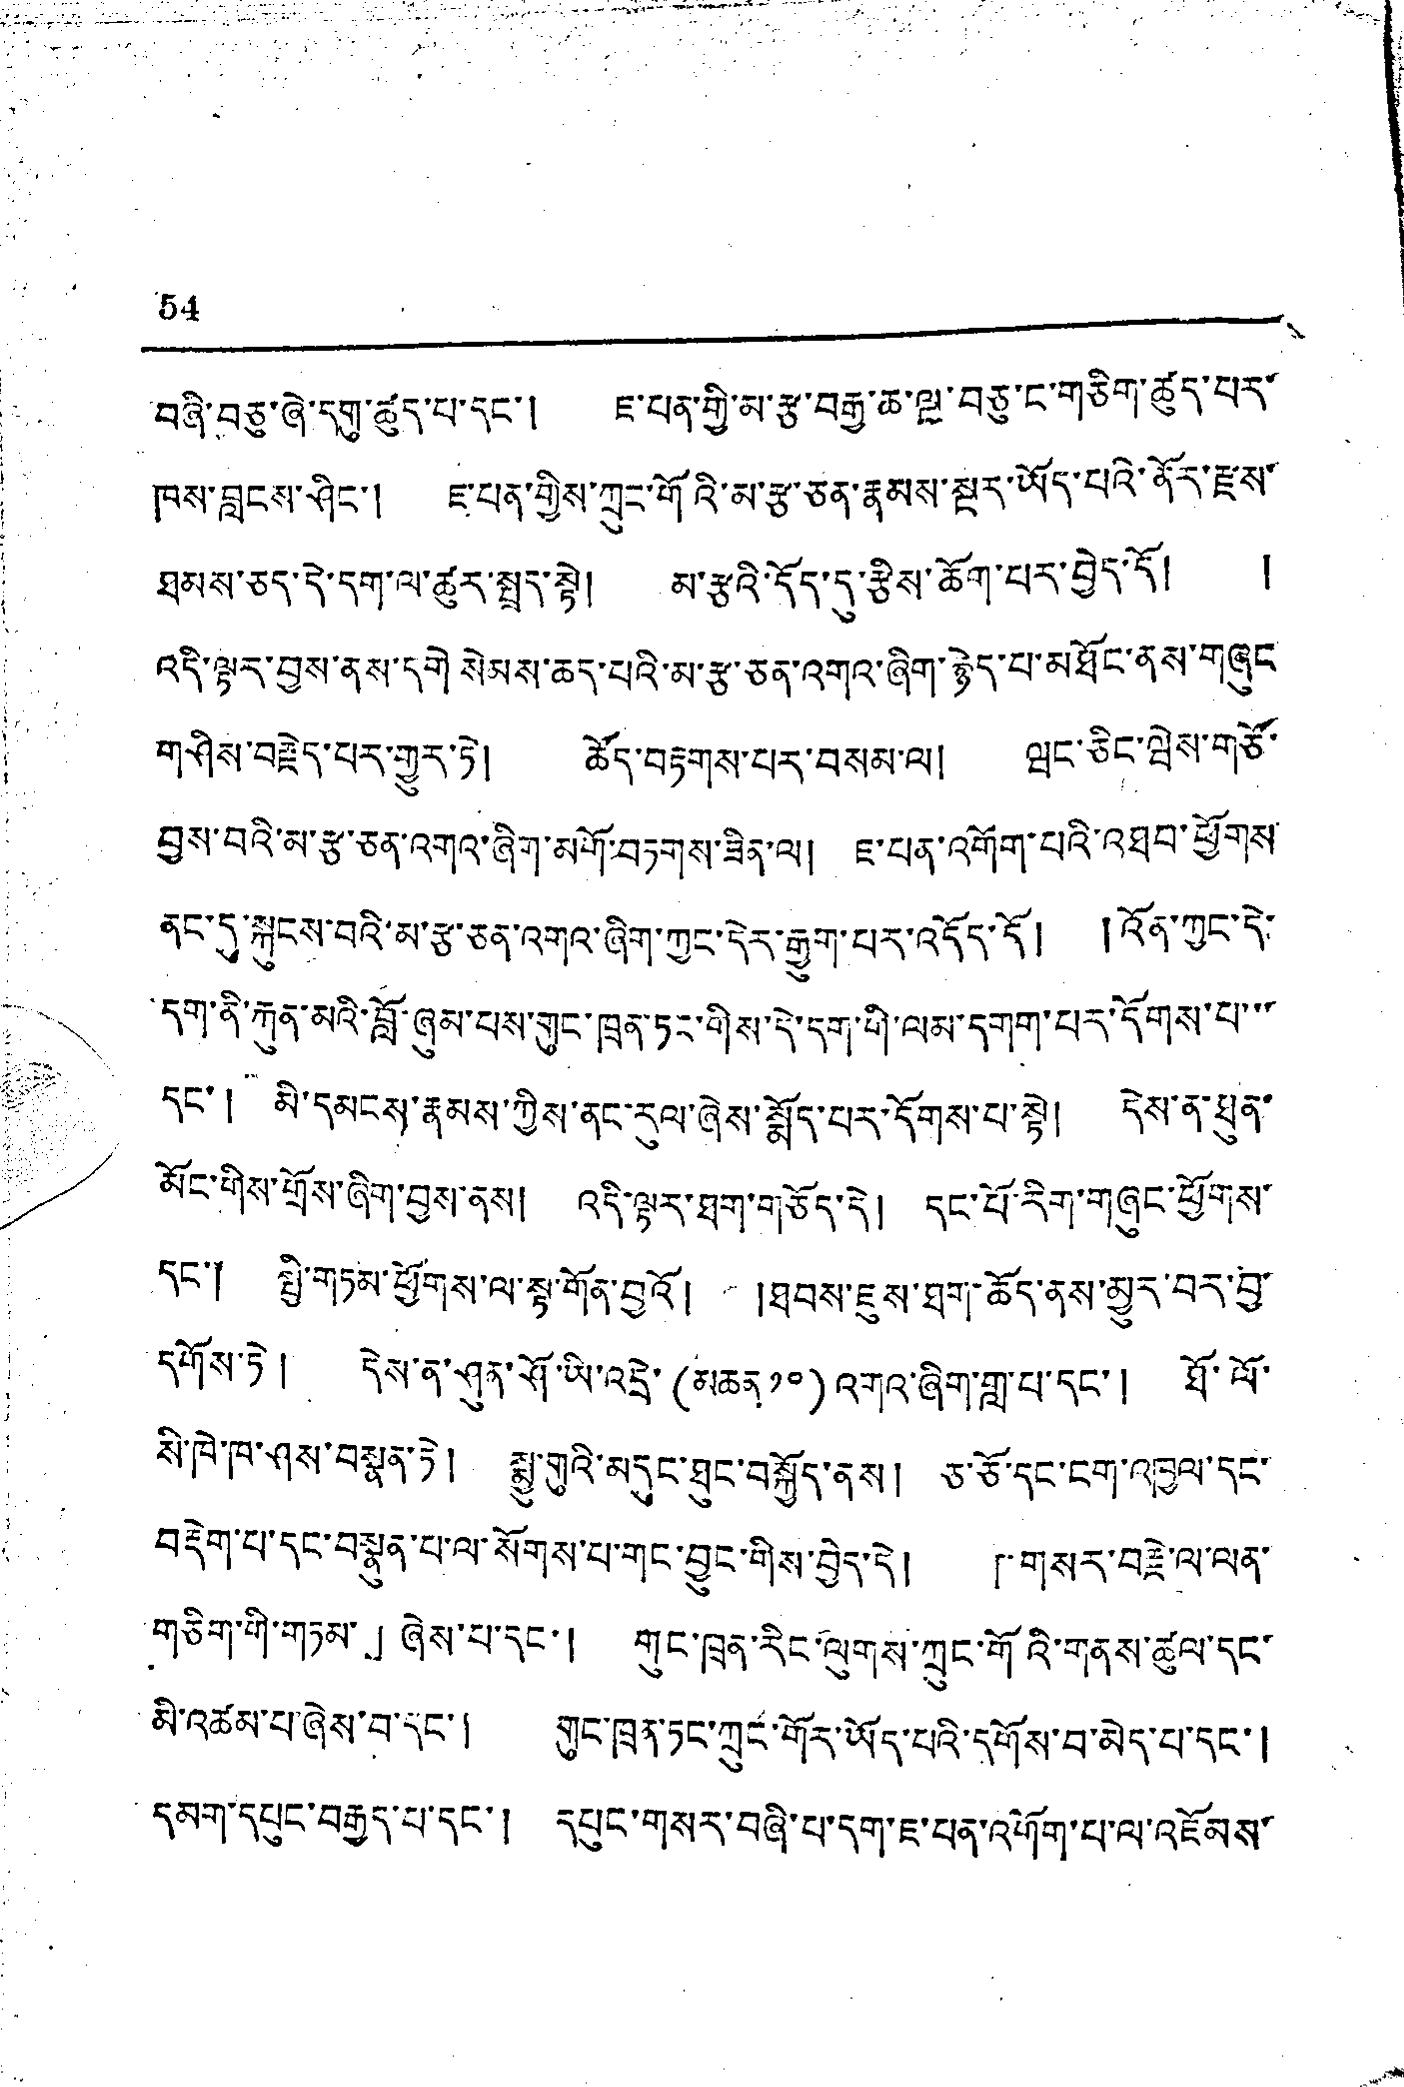54
བཞི་བཅུ་ཞེ་དགུ་ཚུད་པ་དང་། ཇ་པན་གྱི་མ་རྩ་བརྒྱ་ཆ་ལྔ་བཅུ་ང་གཅིག་ཚུད་པར་
ཁས་བླངས་ཤིང་། ཇ་པན་གྱིས་ཀྲུང་གོའི་མ་རྩ་ཅན་རྣམས་སྔར་ཡོད་པའི་ནོར་རྫས་
ཐམས་ཅད་དེ་དག་ལ་ཚུར་སྤྲད་སྟེ། མ་རྩའི་དོད་དུ་རྩིས་ཆོག་པར་བྱེད་དོ། །
འདི་ལྟར་བྱས་ནས་དགེ་སེམས་ཆད་པའི་མ་རྩ་ཅན་འགའ་ཞིག་རྙེད་པ་མཐོང་ནིས་གཞུང་
གཤིས་བརྗེད་པར་གྱུར་ཏེ། ཚོད་བརྟགས་པར་བསམ་ལ། ཝང་ཅིང་ཝེས་གཅོ་
བྱས་བའི་མ་རྩ་ཅན་འགའ་ཞིག་མགོ་བཏགས་ཟིན་ལ། ཇ་པན་འགོག་པའི་འཐབ་ཕྱོགས་
ནང་དུ་སྐུངས་བའི་མ་རྩ་ཅན་འགའ་ཞིག་ཀྱང་དེར་རྒྱུག་པར་འདོད་དོ། །འོན་ཀྱང་དེ་
དག་ནི་རྐུན་མའི་བློ་ཞུམ་པས་གུང་ཁྲན་ཏང་གིས་དེ་དག་གི་ལམ་དགག་པར་དོགས་པ་་་
དང་། མི་དམངས་རྣམས་ཀྱིས་ནང་རུལ་ཞེས་སྨོད་པར་དོགས་པ་སྟེ། དེས་ན་ཐུན་
མོང་གིས་གྲོས་ཞིག་བྱས་ནས། འདི་ལྟར་ཐག་གཙོད་དེ། དང་པོ་རིག་གཞུང་ཕྱོགས་
དང་། སྤྱི་གཏམ་ཕྱོགས་ལ་སྟ་གོན་བྱའོ། །ཞབས་ཇུས་ཐག་ཆོད་ནས་མྱུར་བར་བྱ་
དགོས་ཏེ། དེས་ན་ཤུན་ཤོ་ཡི་འདྲེ་(མཆན ༡༠)འགའ་ཞིག་གླ་པ་དང་། ཐོ་ལོ་
སི་ཁེ་ཁ་ཤས་བསྟུན་ཏེ། སྨྱུ་གུའི་མདུང་ཐུང་བསྐྱོད་ནས། ཅ་ཅོ་དང་ངག་འཁྱལ་དང་
བརྡེག་པ་དང་བསྣུན་པ་ལ་སོགས་པ་གང་བྱུང་གིས་བྱེད་དེ། 「གསར་བརྗེ་ལ་ལན་
གཅིག་གི་གཏམ་」ཞེས་པ་དང་། གུང་ཁྲན་རིང་ལུགས་ཀྲུང་གོའི་གནས་ཚུལ་དང་
མི་འཚམ་པ་ཞེས་བ་དང་། གུང་ཁྲན་ཏང་ཀྲུང་གོར་ཡོད་པའི་དགོས་བ་མེད་པ་དང་།
དམག་དཔུང་བརྒྱད་པ་དང་། དཔུང་གསར་བཞི་པ་དག་ཇ་པན་འགོག་པ་ལ་འཇོམས་
